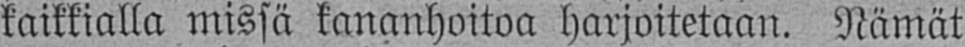kaikkialla missä kananhoitoa harjoitetaan. Nämät
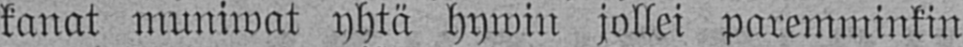kanat muniwat yhtä hywin jollei paremminkin
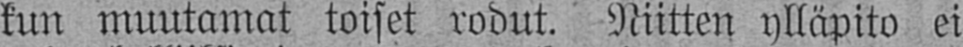kun muutamat toiset rodut. Niitten ylläpito ei
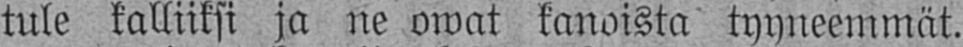tule kalliiksi ja ne owat kanoista tyyneemmät.
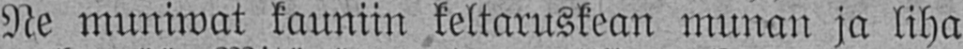Ne muniwat kauniin keltaruskean munan ja liha
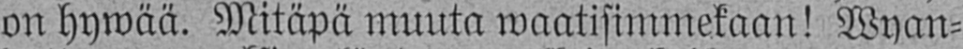on hywää. Mitäpä muuta waatisimmekaan! Wyan-
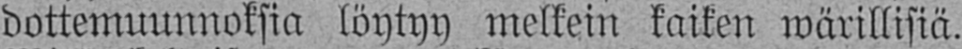dottemuunnoksia löytyy melkein kaiken wärillisiä.
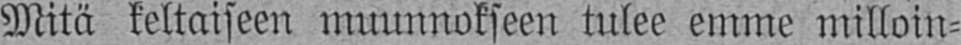Mitä keltaiseen muunnokseen tulee emme milloin-
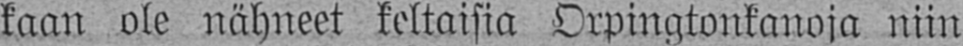kaan ole nähneet keltaisia Orpingtonkanoja niin
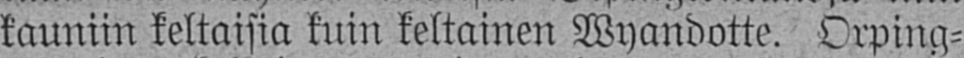kauniin keltaisia kuin keltainen Wyandotte. Orping-
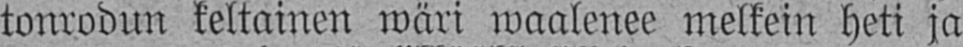tonrodun keltainen wäri waalenee melkein heti ja
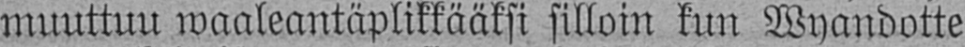muuttuu waaleantäplikkääksi silloin kun Wyandotte
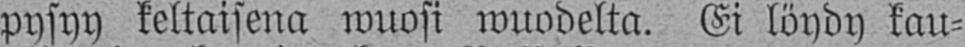pysyy keltaisena wuosi wuodelta. Ei löydy kau-
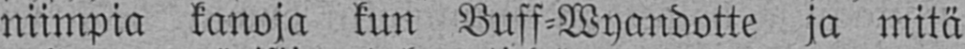niimpia kanoja kun Buff-Wyandotte ja mitä
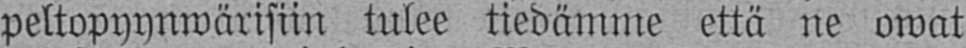peltopyynwärisiin tulee tiedämme että ne owat
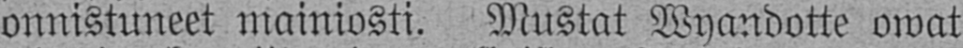onnistuneet mainiosti. Mustat Wyandotte owat
